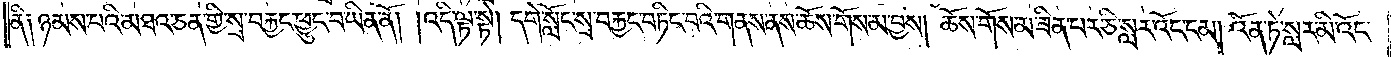ནི༑ ཉམས་པའི་མཐའ་ཅན་གྱི་སྲ་བརྐྱང་ཕྱུང་བ་ཡིན་ནོ། །འདི་ལྟ་སྟེ། དགེ་སློང་སྲ་བརྐྱང་བཏིང་བའི་གནས་ནས་ཆོས་གོས་མ་བྱས། ཆོས་གོས་མ་ཟིན་པར་ཅི་སླར་འོང་ངམ། འོན་ཏེ་སླར་མི་འོང་
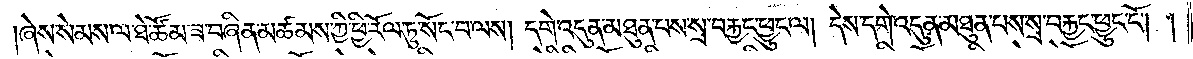ཞེས་སེམས་ལ་ཐེ་ཚོམ་ཟ་བཞིན་མཚམས་ཀྱི་ཕྱི་རོལ་ཏུ་སོང་བ་ལས། དགེ་འདུན་མཐུན་པས་སྲ་བརྐྱང་ཕྱུང་ལ། དེས་དགེ་འདུན་མཐུན་པས་སྲ་བརྐྱང་ཕྱུང་ངོ༌། །
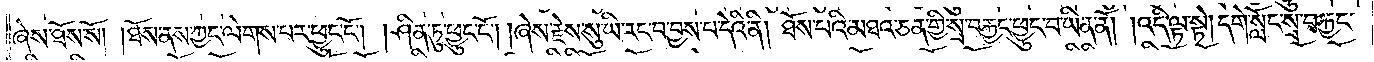ཞེས་ཐོས་སོ། །ཐོས་ནས་ཀྱང་ལེགས་པར་ཕྱུང་ངོ༌། །ཤིན་ཏུ་ཕྱུང་ངོ༌། །ཞེས་རྗེས་སུ་ཡི་རང་བ་བྱས་པ་དེའི་ནི། ཐོས་པའི་མཐའ་ཅན་གྱི་སྲ་བརྐྱང་ཕྱུང་བ་ཡིན་ནོ། །འདི་ལྟ་སྟེ། དགེ་སློང་སྲ་བརྐྱང་
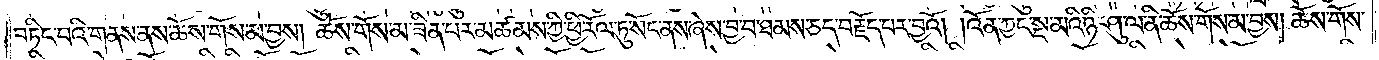བཏིང་བའི་གནས་ནས་ཆོས་གོས་མ་བྱས། ཆོས་གོས་མ་ཟིན་པར་མཚམས་ཀྱི་ཕྱི་རོལ་ཏུ་སོང་ནས་ཞེས་བྱ་བ་ཐམས་ཅད་བརྗོད་པར་བྱའོ། །འོན་ཀྱང་སྔ་མའི་ཉི་ཤུ་ལ་ནི་ཆོས་གོས་མ་བྱས། ཆོས་གོས་
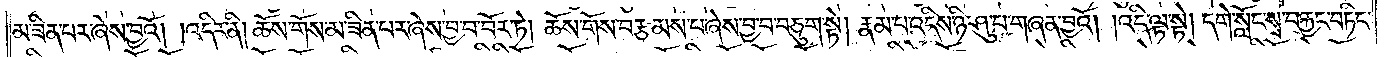མ་ཟིན་པར་ཞེས་བྱའོ། །འདིར་ནི། ཆོས་གོས་མ་ཟིན་པར་ཞེས་བྱ་བ་བོར་ཏེ། ཆོས་གོས་བརྩམས་པ་ཞེས་བྱ་བ་བཅུག་སྟེ། རྣམ་པ་འདིས་ཉི་ཤུ་པ་གཞན་བྱའོ། །འདི་ལྟ་སྟེ། དགེ་སློང་སྲ་བརྐྱང་བཏིང་
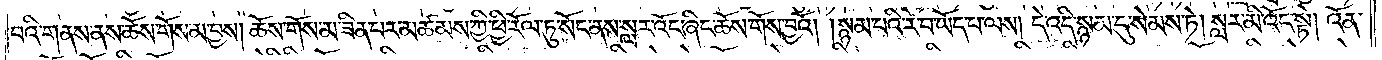བའི་གནས་ནས་ཆོས་གོས་མ་བྱས། ཆོས་གོས་མ་ཟིན་པར་མཚམས་ཀྱི་ཕྱི་རོལ་ཏུ་སོང་ནས་སླར་འོང་ཞིང་ཆོས་གོས་བྱའོ། །སྙམ་པའི་རེ་བ་ཡོད་པ་ལས། དེ་འདི་སྙམ་དུ་སེམས་ཏེ། སླར་མི་འོང་སྟེ། འོན་
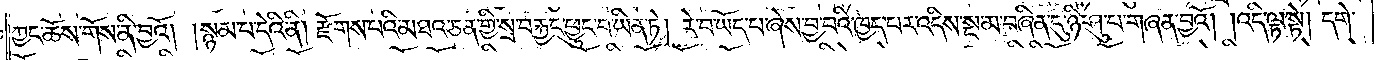ཀྱང་ཆོས་གོས་ནི་བྱའོ། །སྙམ་པ་དེའི་ནི། རྫོགས་པའི་མཐའ་ཅན་གྱི་སྲ་བརྐྱང་ཕྱུང་བ་ཡིན་ཏེ། རེ་བ་ཡོད་པ་ཞེས་བྱ་བའི་ཁྱད་པར་འདིས་སྔ་མ་བཞིན་དུ་ཉི་ཤུ་པ་གཞན་བྱའོ། །འདི་ལྟ་སྟེ། དགེ་
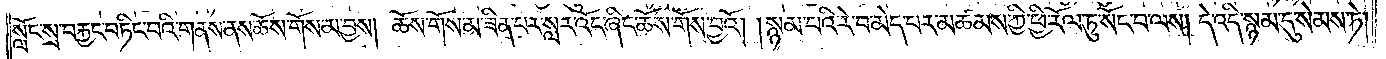སློང་སྲ་བརྐྱང་བཏིང་བའི་གནས་ནས་ཆོས་གོས་མ་བྱས། ཆོས་གོས་མ་ཟིན་པར་སླར་འོང་ཞིང་ཆོས་གོས་བྱའོ། །སྙམ་པའི་རེ་བ་མེད་པར་མཚམས་ཀྱི་ཕྱི་རོལ་ཏུ་སོང་བ་ལས། དེ་འདི་སྙམ་དུ་སེམས་ཏེ།
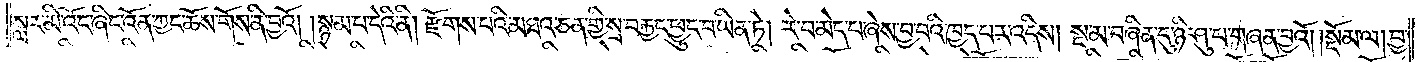སླར་མི་འོང་ཞིང་འོན་ཀྱང་ཆོས་གོས་ནི་བྱའོ། །སྙམ་པ་དེའི་ནི། རྫོགས་པའི་མཐའ་ཅན་གྱི་སྲ་བརྐྱང་ཕྱུང་བ་ཡིན་ཏེ། རེ་བ་མེད་པ་ཞེས་བྱ་བའི་ཁྱད་པར་འདིས། སྔ་མ་བཞིན་དུ་ཉི་ཤུ་པ་གཞན་བྱའོ།    །སྡོམ་ལ། བྱ་
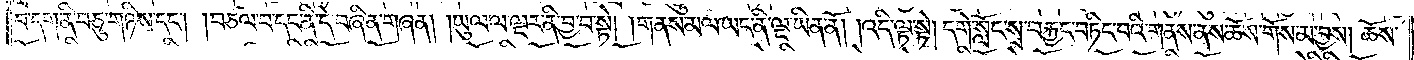བ་དག་ནི་བཅུ་གཉིས་དང༌། །བཙལ་བ་དང་ནི་དེ་བཞིན་གཞན། །ཡུལ་ལ་ལྔར་ནི་བྱ་བ་སྟེ། །གནས་མལ་ཡང་ནི་ལྔ་ཡིན་ནོ། །འདི་ལྟ་སྟེ། དགེ་སློང་སྲ་བརྐྱང་བཏིང་བའི་གནས་ནས་ཆོས་གོས་མ་བྱས། ཆོས་
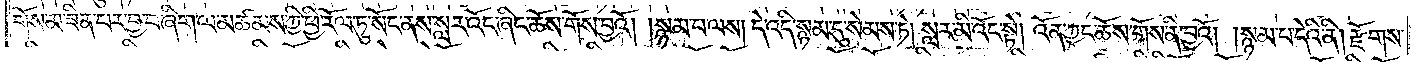གོས་མ་ཟིན་པར་བྱ་བ་ཞིག་ལ་མཚམས་ཀྱི་ཕྱི་རོལ་ཏུ་སོང་ནས་སླར་འོང་ཞིང་ཆོས་གོས་བྱའོ། །སྙམ་པ་ལས། དེ་འདི་སྙམ་དུ་སེམས་ཏེ། སླར་མི་འོང་སྟེ། འོན་ཀྱང་ཆོས་གོས་ནི་བྱའོ། །སྙམ་པ་དེའི་ནི། རྫོགས་
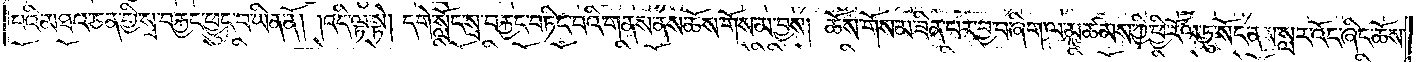པའི་མཐའ་ཅན་གྱི་སྲ་བརྐྱང་ཕྱུང་བ་ཡིན་ནོ། །འདི་ལྟ་སྟེ། དགེ་སློང་སྲ་བརྐྱང་བཏིང་བའི་གནས་ནས་ཆོས་གོས་མ་བྱས། ཆོས་གོས་མ་ཟིན་པར་བྱ་བ་ཞིག་ལ་མཚམས་ཀྱི་ཕྱི་རོལ་ཏུ་སོང་ནས་སླར་འོང་ཞིང་ཆོས་
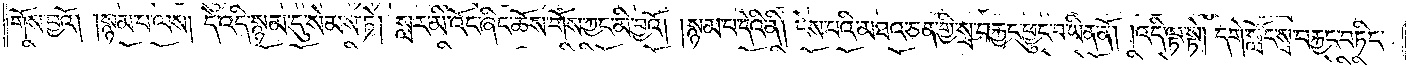གོས་བྱའོ། །སྙམ་པ་ལས། དེ་འདི་སྙམ་དུ་སེམས་ཏེ། སླར་མི་འོང་ཞིང་ཆོས་གོས་ཀྱང་མི་བྱའོ། །སྙམ་པ་དེའི་ནི། ངེས་པའི་མཐའ་ཅན་གྱི་སྲ་བརྐྱང་ཕྱུང་བ་ཡིན་ནོ། །འདི་ལྟ་སྟེ། དགེ་སློང་སྲ་བརྐྱང་བཏིང་
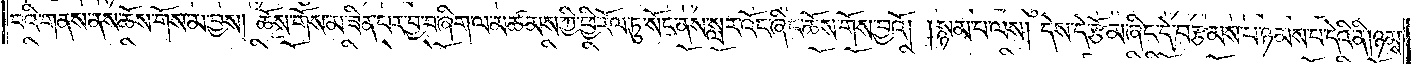བའི་གནས་ནས་ཆོས་གོས་མ་བྱས། ཆོས་གོས་མ་ཟིན་པར་བྱ་བ་ཞིག་ལ་མཚམས་ཀྱི་ཕྱི་རོལ་ཏུ་སོང་ནས་སླར་འོང་ཞིང་ཆོས་གོས་བྱའོ། །སྙམ་པ་ལས། དེས་དེ་རྩོམ་ཞིང་དེ་བརྩམས་པ་ཉམས་པ་དེའི་ནི། ཉམས་
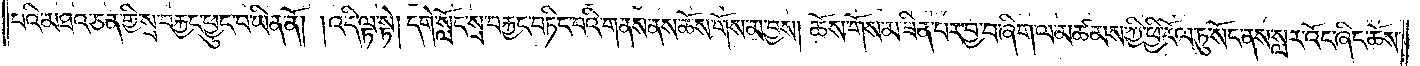བའི་མཐའ་ཅན་གྱི་སྲ་བརྐྱང་ཕྱུང་བ་ཡིན་ནོ། །འདི་ལྟ་སྟེ། དགེ་སློང་སྲ་བརྐྱང་བཏིང་བའི་གནས་ནས་ཆོས་གོས་མ་བྱས། ཆོས་གོས་མ་ཟིན་པར་བྱ་བ་ཞིག་ལ་མཚམས་ཀྱི་ཕྱི་རོལ་དུ་སོང་ནས་སླར་འོང་ཞིང་ཆོས་
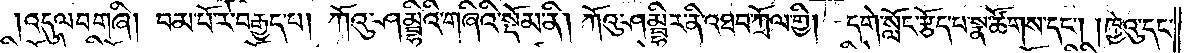འདུལ་བ་གཞི། བམ་པོ་རེ་བརྒྱད་པ། བམ་པོ་དྲུག་བཅུ་བརྒྱད་པ།ཀོའུ་ཤམྦྷིའི་གཞིའི་སྡོམ་ནི། ཀོའུ་ཤམྦྷིར་ནི་འཐབ་ཀྲོལ་གྱི། དགེ་སློང་རྩོད་པ་སྣ་ཚོགས་དང༌། །ཁྱེའུ་དང་
